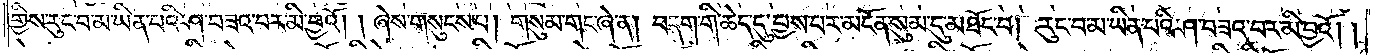གྱིས་རུང་བ་མ་ཡིན་པའི་ཤ་བཟའ་བར་མི་བྱའོ། །ཞེས་གསུངས་པ། གསུམ་གང་ཞེ་ན། བདག་གི་ཆེད་དུ་བྱས་པར་མངོན་སུམ་དུ་མཐོང་བ། རུང་བ་མ་ཡིན་པའི་ཤ་བཟའ་བར་མི་བྱའོ། །
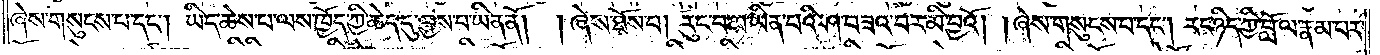ཞེས་གསུངས་པ་དང༌། ཡིད་ཆེས་པ་ལས་ཁྱོད་ཀྱི་ཆེད་དུ་བྱས་པ་ཡིན་ནོ། །ཞེས་ཐོས་པ། རུང་བ་མ་ཡིན་པའི་ཤ་བཟའ་བར་མི་བྱའོ། །ཞེས་གསུངས་པ་དང༌། རང་ཉིད་ཀྱི་བློ་ལ་རྣམ་པར་
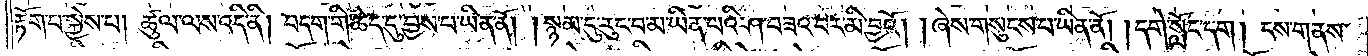རྟོག་པ་སྐྱེས་པ། ཚུལ་ལས་འདི་ནི། བདག་གི་ཆེད་དུ་བྱས་པ་ཡིན་ནོ། །སྙམ་དུ་རུང་བ་མ་ཡིན་པའི་ཤ་བཟའ་བར་མི་བྱའོ། །ཞེས་གསུངས་པ་ཡིན་ནོ། །དགེ་སློང་དག། ངས་གནས་
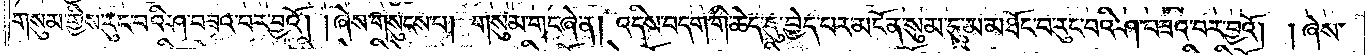གསུམ་གྱིས་རུང་བའི་ཤ་བཟའ་བར་བྱའོ། །ཞེས་གསུངས་པ། གསུམ་གང་ཞེ་ན། འདིས་བདག་གི་ཆེད་དུ་བྱེད་པར་མངོན་སུམ་དུ་མ་མཐོང་བ་རུང་བའི་ཤ་བཟའ་བར་བྱའོ། །ཞེས་
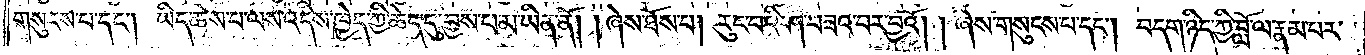གསུངས་པ་དང༌། ཡིད་ཆེས་པ་ལས་འདིས་ཁྱེད་ཀྱི་ཆེད་དུ་བྱས་པ་མ་ཡིན་ནོ། །ཞེས་ཐོས་པ། རུང་བའི་ཤ་བཟའ་བར་བྱའོ། །ཞེས་གསུངས་པ་དང༌། བདག་ཉིད་ཀྱི་བློ་ལ་རྣམ་པར་
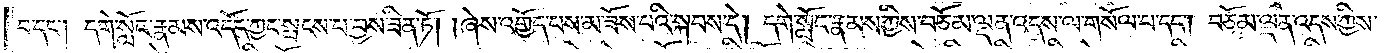བ་དང༌། དགེ་སློང་རྣམས་འདོད་ཀྱང་སྤངས་པ་བྱས་ཟིན་ཏོ། །ཞེས་འགྱོད་པས་མ་ཟོས་པའི་སྐབས་དེ། དགེ་སློང་རྣམས་ཀྱིས་བཅོམ་ལྡན་འདས་ལ་གསོལ་པ་དང༌། བཅོམ་ལྡན་འདས་ཀྱིས་
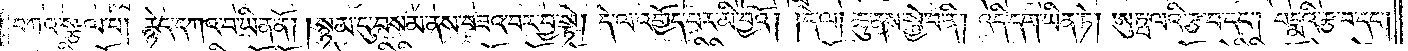བཀའ་སྩལ་པ། རྙེད་དཀའ་བ་ཡིན་ནོ། །སྙམ་དུ་བསམ་ནས་བཟའ་བར་བྱ་སྟེ། དེ་ལ་འགྱོད་པར་མི་བྱའོ། །དེ་ལ། ཆུ་ནས་སྐྱེ་བ་ནི། འདི་དག་ཡིན་ཏེ། ཨུཏྤ་ལའི་རྩ་བ་དང༌། པདྨའི་རྩ་བ་དང༌།
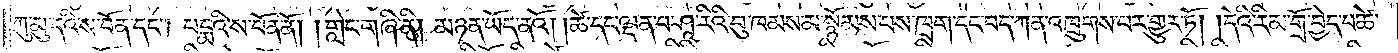ཀུ་མུ་དའི་ས་བོན་དང༌། པདྨའི་ས་བོན་ནོ། །གླེང་གཞི་ནི། མཉན་ཡོད་ནའོ། །ཚེ་དང་ལྡན་པ་ཤཱ་རིའི་བུ་ཁམས་མ་སྙོམས་པས་ཁྲག་དང་བད་ཀན་འཁྲུགས་པར་གྱུར་ཏོ། །དེའི་རིམ་གྲོ་བྱེད་པ་ཚེ་
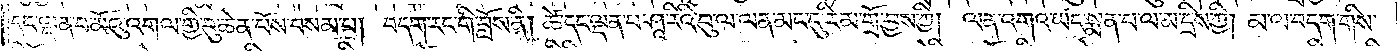དང་ལྡན་པ་མོའུ་འགལ་གྱི་བུ་ཆེན་པོས་བསམ་པ། བདག་རང་གི་བློས་ནི། ཚེ་དང་ལྡན་པ་ཤཱ་རིའི་བུ་ལ་ལན་མང་དུ་རིམ་གྲོ་བྱས་ཀྱི། ལན་འགའ་ཡང་སྨན་པ་ལ་མ་དྲིས་ཀྱི། མ་ལ་བདག་གིས་
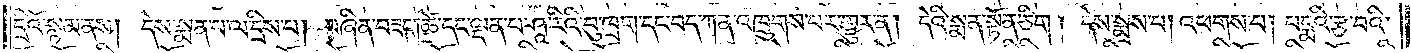དྲིའོ་སྙམ་ནས། དེས་སྨན་པ་ལ་དྲིས་པ། བཞིན་བཟང༌། ཚེ་དང་ལྡན་པ་ཤཱ་རིའི་བུ་ཁྲག་དང་བད་ཀན་འཁྲུགས་པར་གྱུར་ན། དེའི་སྨན་སྟོན་ཅིག། དེས་སྨྲས་པ། འཕགས་པ། པདྨའི་རྩ་བའི་
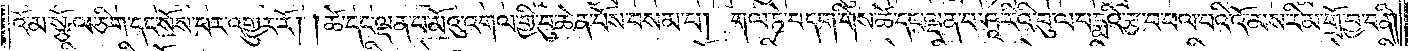འོ་མ་སྩོལ་ཅིག་དང་སོས་པར་འགྱུར་རོ། །ཚེ་དང་ལྡན་པ་མོའུ་འགལ་གྱི་བུ་ཆེན་པོས་བསམ་པ། གལ་ཏེ་བདག་གིས་ཚེ་དང་ལྡན་པ་ཤཱ་རིའི་བུ་ལ་པདྨའི་རྩ་བ་ཕལ་བའི་འོ་མས་རིམ་གྲོ་བྱ་བ་ནི།
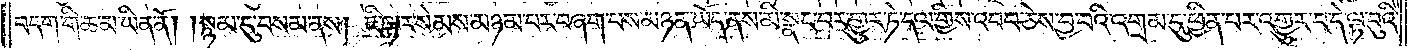བདག་གི་ཆ་མ་ཡིན་ནོ། །སྙམ་དུ་བསམ་ནས། ཇི་ལྟར་སེམས་མཉམ་པར་བཞག་པས་མཉན་ཡོད་ནས་མི་སྣང་བར་གྱུར་ཏེ་དལ་གྱིས་འབབ་ཅེས་བྱ་བའི་འགྲམ་དུ་ཕྱིན་པར་འགྱུར་བ་དེ་ལྟ་བུའི་
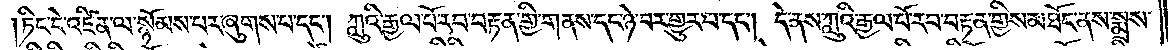ཏིང་ངེ་འཛིན་ལ་སྙོམས་པར་ཞུགས་པ་དང༌། ཀླུའི་རྒྱལ་པོ་རབ་བརྟན་གྱི་གནས་དང་ཉེ་བར་གྱུར་པ་དང༌། དེ་ནས་ཀླུའི་རྒྱལ་པོ་རབ་བརྟན་གྱིས་མཐོང་ནས་སྨྲས་
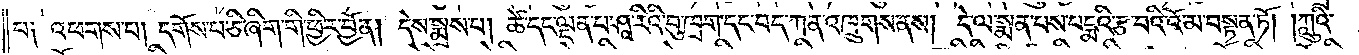པ༑ འཕགས་པ། དགོས་པ་ཅི་ཞིག་གི་ཕྱིར་བྱོན། དེས་སྨྲས་པ། ཚེ་དང་ལྡན་པ་ཤཱ་རིའི་བུ་ཁྲག་དང་བད་ཀན་འཁྲུགས་ནས། དེ་ལ་སྨན་པས་པདྨའི་རྩ་བའི་འོ་མ་བསྟན་ཏོ། །ཀླུའི་
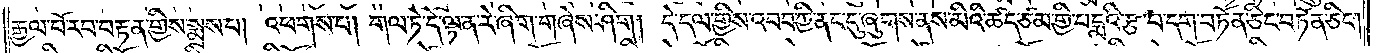རྒྱལ་པོ་རབ་བརྟན་གྱིས་སྨྲས་པ། འཕགས་པ། གལ་ཏེ་དེ་ལྟ་ན་རེ་ཞིག་གཞེས་ཤིག། དེ་དལ་གྱིས་འབབ་ཀྱི་ནང་དུ་ཞུགས་ནས་མིའི་ཚད་ཙམ་གྱི་པདྨའི་རྩ་བ་དག་བཏོན་ཅིང་བཏོན་ཅིང༌།
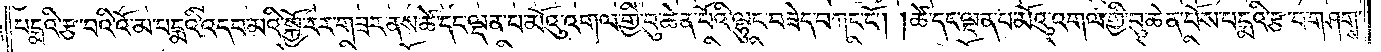པདྨའི་རྩ་བའི་འོ་མ་པདྨའི་འདབ་མའི་སྐྱོ་རར་གཟར་ནས་ཚེ་དང་ལྡན་པ་མོའུ་འགལ་གྱི་བུ་ཆེན་པོའི་ལྷུང་བཟེད་བཀང་ངོ༌། །ཚེ་དང་ལྡན་པ་མོའུ་འགལ་གྱི་བུ་ཆེན་པོས་པདྨའི་རྩ་བ་གཤགས་
